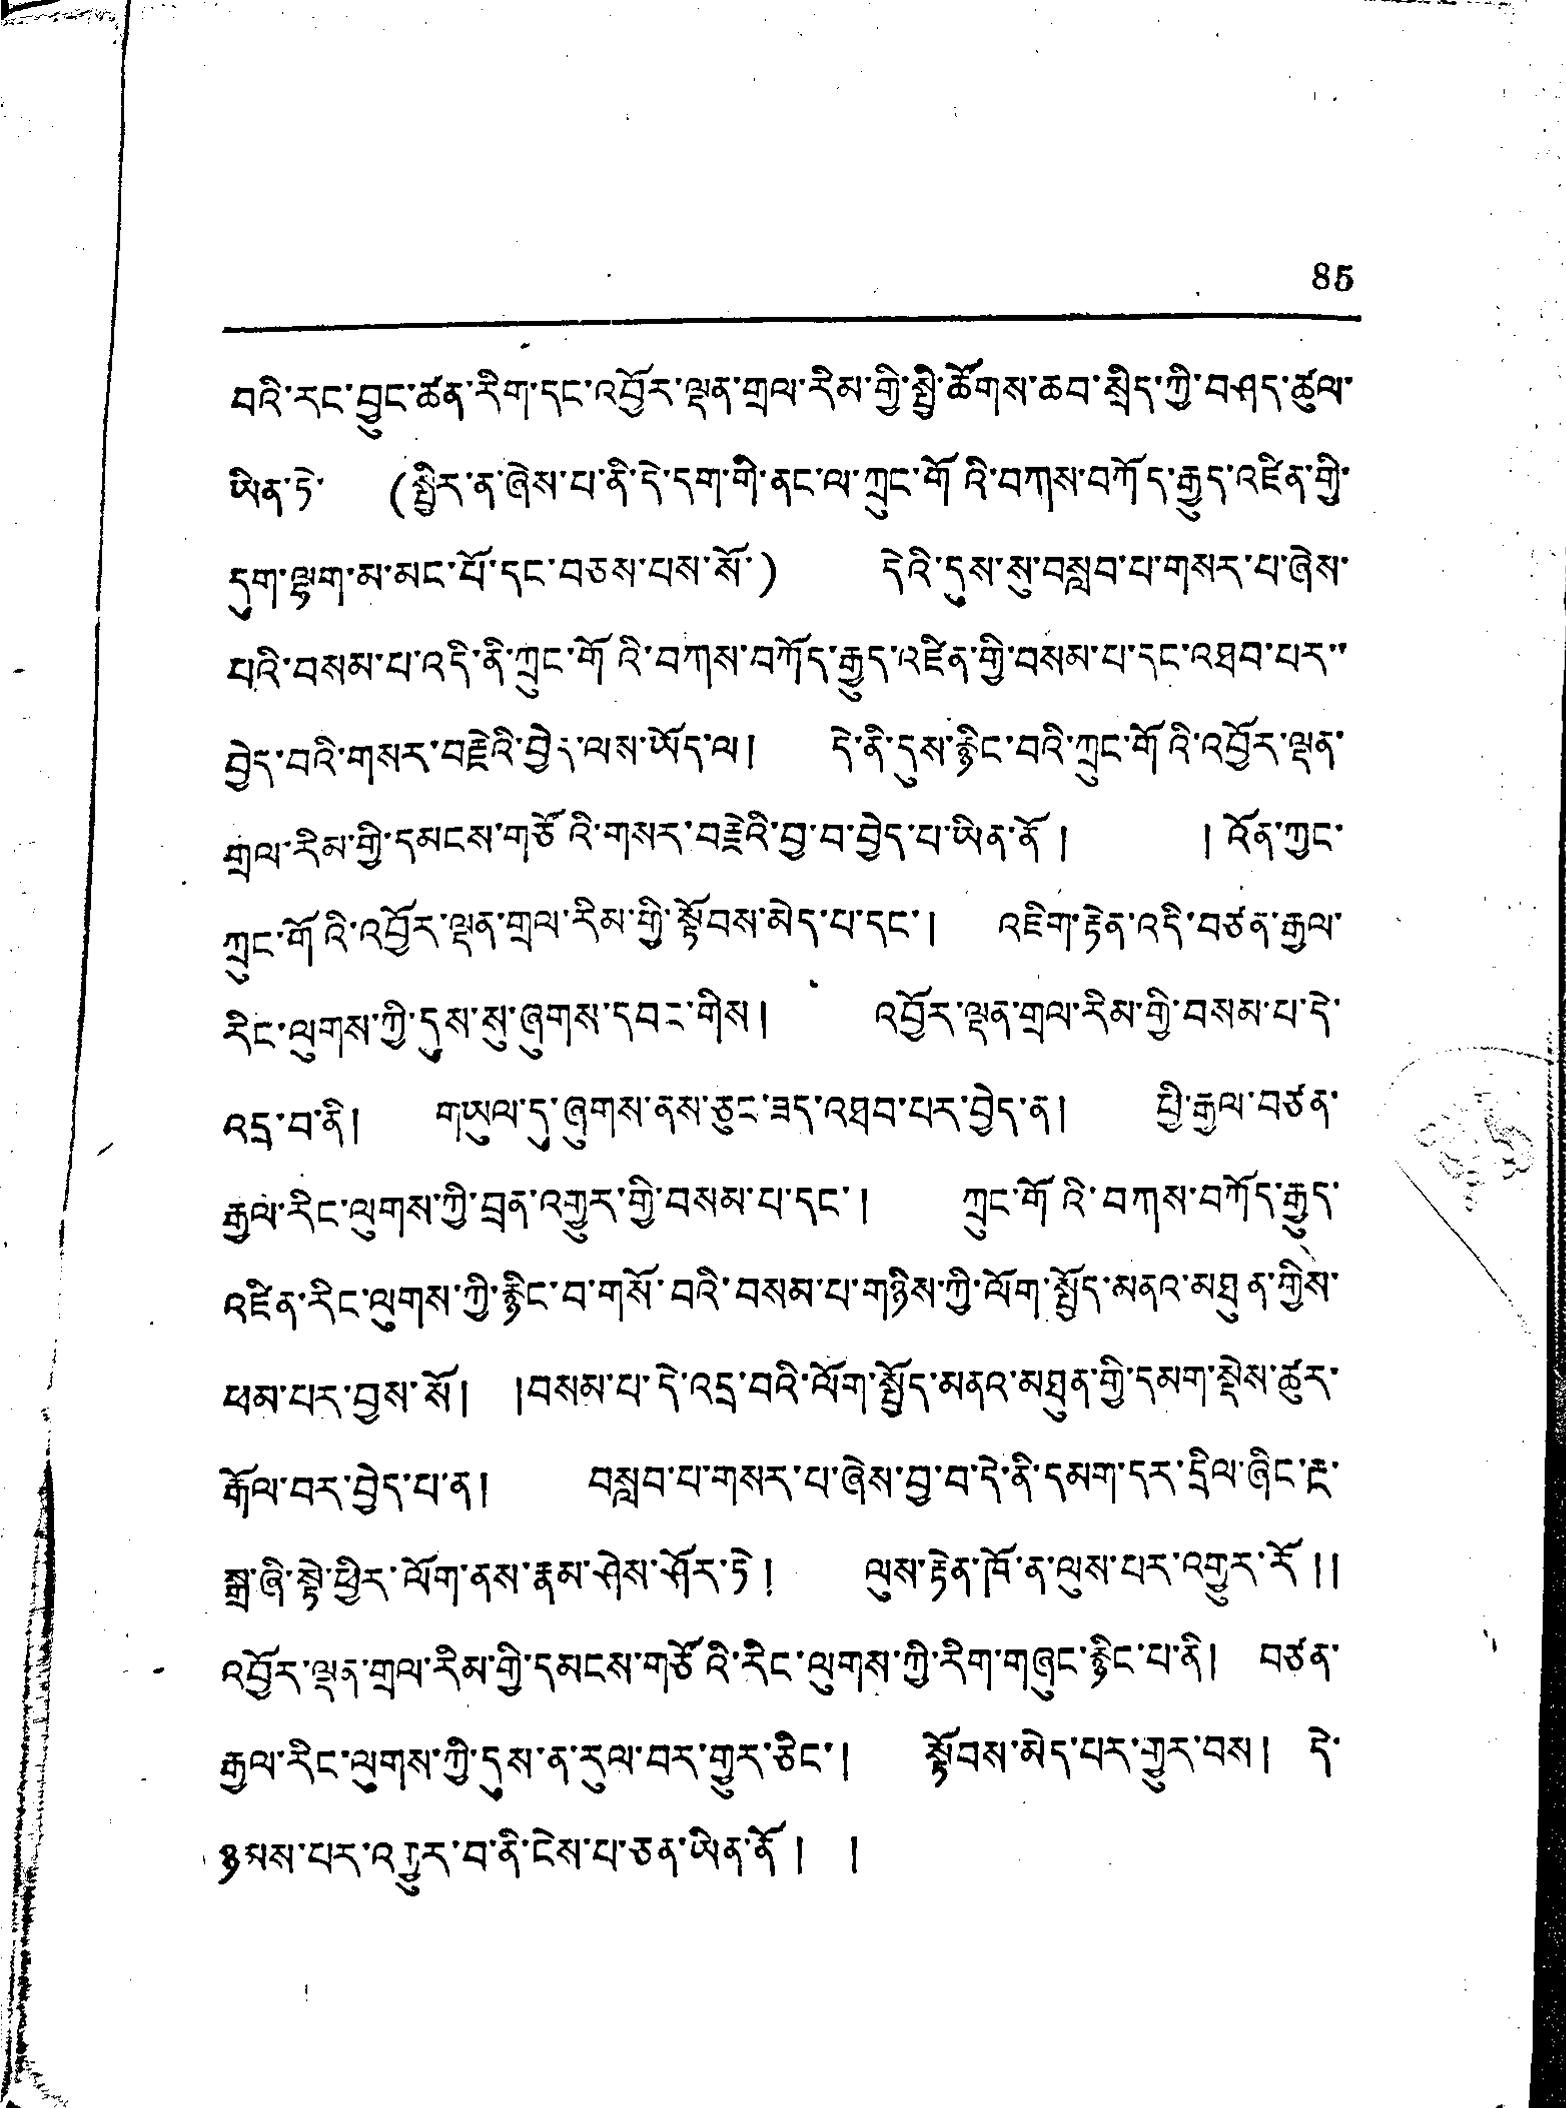85
བའི་རང་བྱུང་ཚན་རིག་དང་འབྱོར་ལྡན་གྲལ་རིམ་གྱི་སྤྱི་ཚོགས་ཆབ་སྲིད་ཀྱི་བཤད་ཚུལ་
ཡིན་ཏེ་ (སྤྱིར་ན་ཞེས་པ་ནི་དེ་དག་གེ་ནང་ལ་ཀྲུང་གོའི་བཀས་བཀོད་རྒྱུད་འཛིན་གྱི་
དུག་ལྷག་མ་མང་པོ་དང་བཅས་པས་སོ་) དེའི་དུས་སུ་བསླབ་པ་གསར་པ་ཞེས་
པའི་བསམ་པ་འདི་ནི་ཀྲུང་གོའི་བཀས་བཀོད་རྒྱུད་འཛིན་གྱི་བསམ་པ་དང་འཐབ་པར་་
བྱེད་བའི་གསར་བརྗེའི་བྱེད་ལས་ཡོད་ལ། དེ་ནི་དུས་རྙིང་བའི་ཀྲུང་གོའི་འབྱོར་ལྡན་
གྲལ་རིམ་གྱི་དམངས་གཙོའི་གསར་བརྗེའི་བྱ་བ་བྱེད་པ་ཡིན་ནོ། ། འོན་ཀྱང་
ཀྲུང་གོའི་འབྱོར་ལྡན་གྲལ་རིམ་གྱི་སྟོབས་མེད་པ་དང་། འཇིག་རྟེན་འདི་བཙན་རྒྱལ་
རིང་ལུགས་ཀྱི་དུས་སུ་ཞུགས་དབང་གིས། འབྱོར་ལྡན་གྲལ་རིམ་གྱི་བསམ་པ་དེ་
འདྲ་བ་ནི། གཡུལ་དུ་ཞུགས་ནས་ཅུང་ཟད་འཐབ་པར་བྱེད་ན། ཕྱི་རྒྱལ་བཙན་
རྒྱལ་རིང་ལུགས་ཀྱི་བྲན་འགྱུར་གྱི་བསམ་པ་དང་། ཀྲུང་གོའི་བཀས་བཀོད་རྒྱུད་
འཛིན་རིང་ལུགས་ཀྱི་རྙིང་བ་གསོ་བའི་བསམ་པ་གཉིས་ཀྱི་ལོག་སྤྱོད་མནའ་མཐུན་གྱིས་
ཕམ་པར་བྱས་སོ། །བསམ་པ་དེ་འདྲ་བའི་ལོག་སྤྱོད་མནའ་མཐུན་གྱི་དམག་སྡེས་ཚུར་
རྒོལ་བར་བྱེད་པ་ན། བསླབ་པ་གསར་པ་ཞེས་བྱ་བ་དེ་ནི་དམག་དར་དྲིལ་ཞིང་རྔ་
སྒྲ་ཞི་སྟེ་ཕྱིར་ལོག་ནས་རྣམ་ཤེས་ཤོར་ཏེ། ལུས་རྟེན་ཁོ་ན་ལུས་པར་འགྱུར་རོ །།
འབྱོར་ལྡན་གྲལ་རིམ་གྱི་དམངས་གཙོའི་རིང་ལུགས་ཀྱི་རིག་གཞུང་རྙིང་པ་ནི། བཙན་
རྒྱལ་རིང་ལུགས་ཀྱི་དུས་ན་རུལ་བར་གྱུར་ཅིང་། སྟོབས་མེད་པར་གྱུར་བས། དེ་
ཉམས་པར་འགྱུར་བ་ནི་ངེས་པ་ཅན་ཡིན་ནོ ། །
